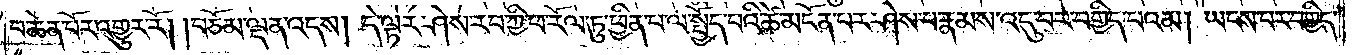པ་ཆེན་པོར་འགྱུར་རོ། །བཅོམ་ལྡན་འདས། དེ་ལྟར་ཤེས་རབ་ཀྱི་ཕ་རོལ་ཏུ་ཕྱིན་པ་ལ་སྤྱོད་པའི་ཚེ་མངོན་པར་ཤེས་པ་རྣམས་འདུ་བར་བགྱིད་པའམ། ཡངས་པར་བགྱིད་
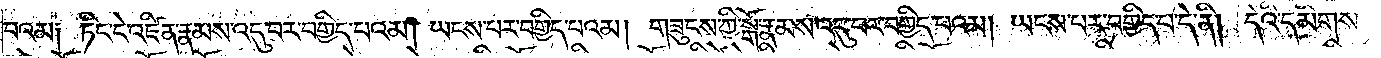པའམ༑ ཏིང་ངེ་འཛིན་རྣམས་འདུ་བར་བགྱིད་པའམ། ཡངས་པར་བགྱིད་པའམ། གཟུངས་ཀྱི་སྒོ་རྣམས་འདུ་བར་བགྱིད་པའམ། ཡངས་པར་བགྱིད་པ་དེ་ནི། དེའི་དམིགས་
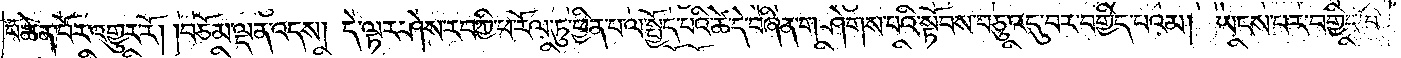པ་ཆེན་པོར་འགྱུར་རོ། །བཅོམ་ལྡན་འདས། དེ་ལྟར་ཤེས་རབ་ཀྱི་ཕ་རོལ་ཏུ་ཕྱིན་པ་ལ་སྤྱོད་པའི་ཚེ་དེ་བཞིན་གཤེགས་པའི་སྟོབས་བཅུ་འདུ་བར་བགྱིད་པའམ། ཡངས་པར་བགྱིད་
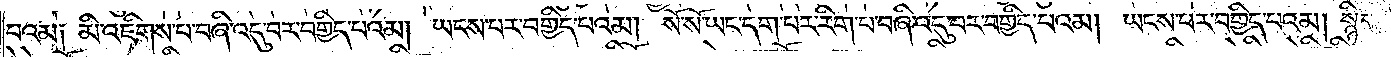པའམ༑ མི་འཇིགས་པ་བཞི་འདུ་བར་བགྱིད་པའམ། ཡངས་པར་བགྱིད་པའམ། སོ་སོ་ཡང་དག་པར་རིག་པ་བཞི་འདུ་བར་བགྱིད་པའམ། ཡངས་པར་བགྱིད་པའམ། སྙིང་
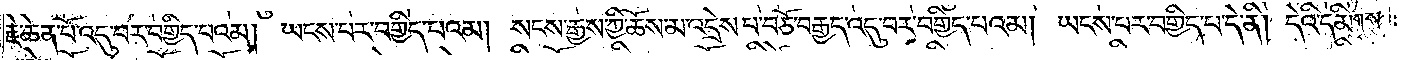རྗེ་ཆེན་པོ་འདུ་བར་བགྱིད་པའམ། ཡངས་པར་བགྱིད་པའམ། སངས་རྒྱས་ཀྱི་ཆོས་མ་འདྲེས་པ་བཅོ་བརྒྱད་འདུ་བར་བགྱིད་པའམ། ཡངས་པར་བགྱིད་པ་དེ་ནི། དེའི་དམིགས་
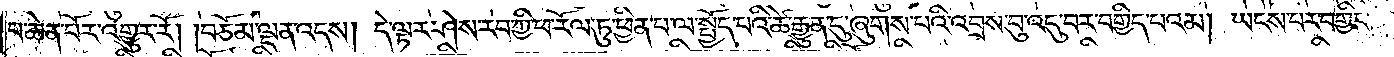པ་ཆེན་པོར་འགྱུར་རོ། །བཅོམ་ལྡན་འདས། དེ་ལྟར་ཤེས་རབ་ཀྱི་ཕ་རོལ་ཏུ་ཕྱིན་པ་ལ་སྤྱོད་པའི་ཚེ་རྒྱུན་དུ་ཞུགས་པའི་འབྲས་བུ་འདུ་བར་བགྱིད་པའམ། ཡངས་པར་བགྱིད་
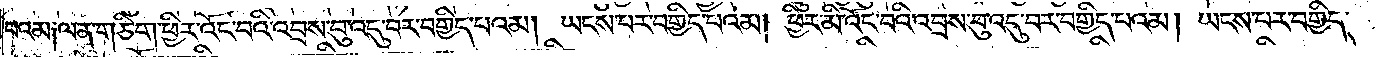པའམ༑ ལན་གཅིག་ཕྱིར་འོང་བའི་འབྲས་བུ་འདུ་བར་བགྱིད་པའམ། ཡངས་པར་བགྱིད་པའམ། ཕྱིར་མི་འོང་བའི་འབྲས་བུ་འདུ་བར་བགྱིད་པའམ། ཡངས་པར་བགྱིད་
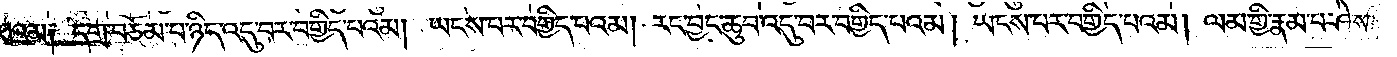པའམ༑ དགྲ་བཅོམ་པ་ཉིད་འདུ་བར་བགྱིད་པའམ། ཡངས་པར་བགྱིད་པའམ། རང་བྱང་ཆུབ་འདུ་བར་བགྱིད་པའམ། །ཡངས་པར་བགྱིད་པའམ། ལམ་གྱི་རྣམ་པ་ཤེས་
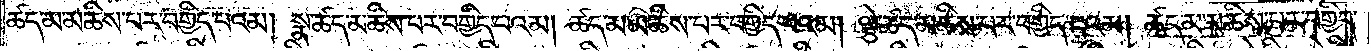ཚད་མ་མཆིས་པར་བགྱིད་པའམ། སྣ་ཚད་མཆིས་པར་བགྱིད་པའམ། ཚད་མ་མཆིས་པར་བགྱིད་པའམ། ལྕེ་ཚད་མཆིས་པར་བགྱིད་པའམ། ཚད་མ་མཆིས་པར་བགྱིད་
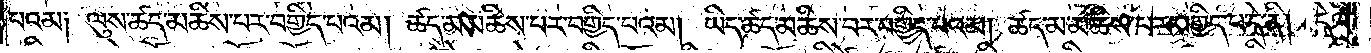པའམ༑ ལུས་ཚད་མཆིས་པར་བགྱིད་པའམ། ཚད་མ་མཆིས་པར་བགྱིད་པའམ། ཡིད་ཚད་མཆིས་པར་བགྱིད་པའམ། ཚད་མ་མཆིས་པར་བགྱིད་པ་དེ་ནི། དེའི་
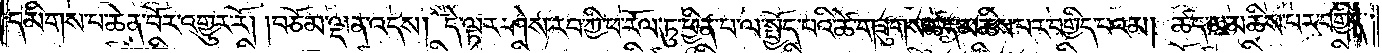དམིགས་པ་ཆེན་པོར་འགྱུར་རོ། །བཅོམ་ལྡན་འདས། དེ་ལྟར་ཤེས་རབ་ཀྱི་ཕ་རོལ་ཏུ་ཕྱིན་པ་ལ་སྤྱོད་པའི་ཚེ་གཟུགས་ཚད་མཆིས་པར་བགྱིད་པའམ། ཚད་མ་མཆིས་པར་བགྱིད་
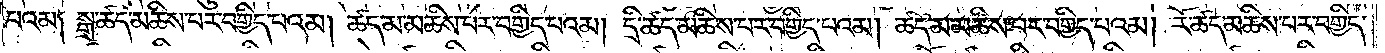པའམ༑ སྒྲ་ཚད་མཆིས་པར་བགྱིད་པའམ། ཚད་མ་མཆིས་པར་བགྱིད་པའམ། དྲི་ཚད་མཆིས་པར་བགྱིད་པའམ། ཚད་མ་མཆིས་པར་བགྱིད་པའམ། རོ་ཚད་མཆིས་པར་བགྱིད་
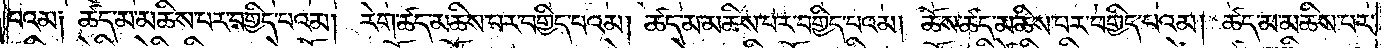པའམ༑ ཚད་མ་མཆིས་པར་བགྱིད་པའམ། རེག་ཚད་མཆིས་པར་བགྱིད་པའམ། ཚད་མ་མཆིས་པར་བགྱིད་པའམ། ཆོས་ཚད་མཆིས་པར་བགྱིད་པའམ། ཚད་མ་མཆིས་པར་
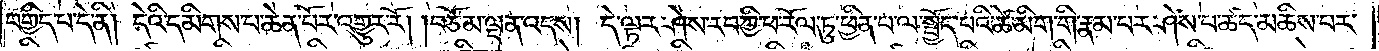བགྱིད་པ་དེ་ནི། དེའི་དམིགས་པ་ཆེན་པོར་འགྱུར་རོ། །བཅོམ་ལྡན་འདས། དེ་ལྟར་ཤེས་རབ་ཀྱི་ཕ་རོལ་ཏུ་ཕྱིན་པ་ལ་སྤྱོད་པའི་ཚེ་མིག་གི་རྣམ་པར་ཤེས་པ་ཚད་མཆིས་པར་
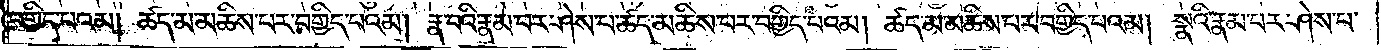བགྱིད་པའམ༑ ཚད་མ་མཆིས་པར་བགྱིད་པའམ། རྣ་བའི་རྣམ་པར་ཤེས་པ་ཚད་མཆིས་པར་བགྱིད་པའམ། ཚད་མ་མཆིས་པར་བགྱིད་པའམ། སྣའི་རྣམ་པར་ཤེས་པ་
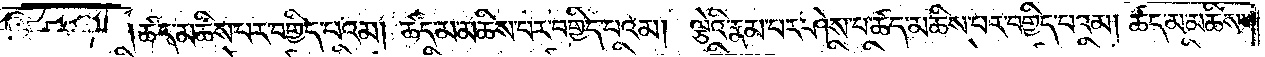ཚད་མཆིས་པར་བགྱིད་པའམ། ཚད་མ་མཆིས་པར་བགྱིད་པའམ། ལྕེའི་རྣམ་པར་ཤེས་པ་ཚད་མཆིས་པར་བགྱིད་པའམ། ཚད་མ་མཆིས་
